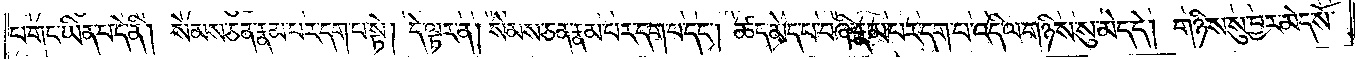པ་གང་ཡིན་པ་དེ་ནི། སེམས་ཅན་རྣམ་པར་དག་པ་སྟེ། དེ་ལྟར་ན། སེམས་ཅན་རྣམ་པར་དག་པ་དང༌། ཚད་མེད་པ་བཞི་རྣམ་པར་དག་པ་འདི་ལ་གཉིས་སུ་མེད་དེ། གཉིས་སུ་བྱར་མེད་སོ་
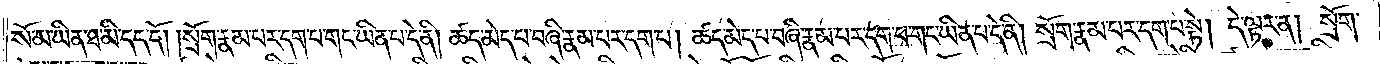སོ་མ་ཡིན་ཐ་མི་དད་དོ། །སྲོག་རྣམ་པར་དག་པ་གང་ཡིན་པ་དེ་ནི། ཚད་མེད་པ་བཞི་རྣམ་པར་དག་པ། ཚད་མེད་པ་བཞི་རྣམ་པར་དག་པ་གང་ཡིན་པ་དེ་ནི། སྲོག་རྣམ་པར་དག་པ་སྟེ། དེ་ལྟར་ན། སྲོག་
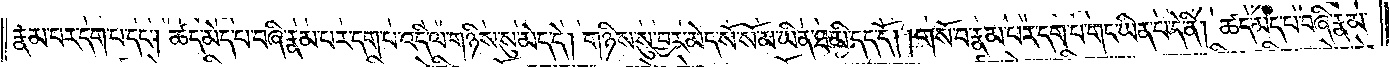རྣམ་པར་དག་པ་དང༌། ཚད་མེད་པ་བཞི་རྣམ་པར་དག་པ་འདི་ལ་གཉིས་སུ་མེད་དེ། གཉིས་སུ་བྱར་མེད་སོ་སོ་མ་ཡིན་ཐ་མི་དད་དོ། །གསོ་བ་རྣམ་པར་དག་པ་གང་ཡིན་པ་དེ་ནི། ཚད་མེད་པ་བཞི་རྣམ་
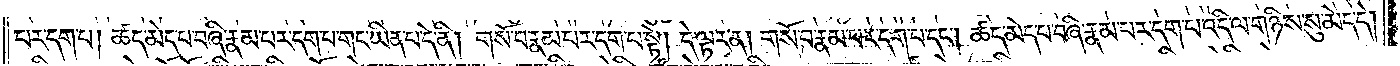པར་དག་པ། ཚད་མེད་པ་བཞི་རྣམ་པར་དག་པ་གང་ཡིན་པ་དེ་ནི། གསོ་བ་རྣམ་པར་དག་པ་སྟེ། དེ་ལྟར་ན། གསོ་བ་རྣམ་པར་དག་པ་དང༌། ཚད་མེད་པ་བཞི་རྣམ་པར་དག་པ་འདི་ལ་གཉིས་སུ་མེད་དེ།
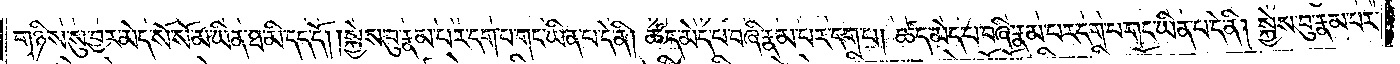གཉིས་སུ་བྱར་མེད་སོ་སོ་མ་ཡིན་ཐ་མི་དད་དོ། །སྐྱེས་བུ་རྣམ་པར་དག་པ་གང་ཡིན་པ་དེ་ནི། ཚད་མེད་པ་བཞི་རྣམ་པར་དག་པ། ཚད་མེད་པ་བཞི་རྣམ་པར་དག་པ་གང་ཡིན་པ་དེ་ནི། སྐྱེས་བུ་རྣམ་པར་
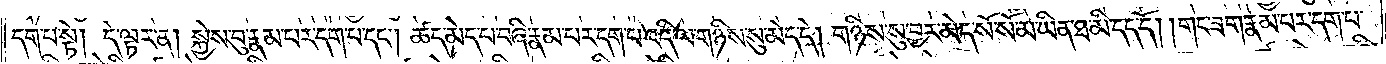དག་པ་སྟེ། དེ་ལྟར་ན། སྐྱེས་བུ་རྣམ་པར་དག་པ་དང༌། ཚད་མེད་པ་བཞི་རྣམ་པར་དག་པ་འདི་ལ་གཉིས་སུ་མེད་དེ། གཉིས་སུ་བྱར་མེད་སོ་སོ་མ་ཡིན་ཐ་མི་དད་དོ། །གང་ཟག་རྣམ་པར་དག་པ་
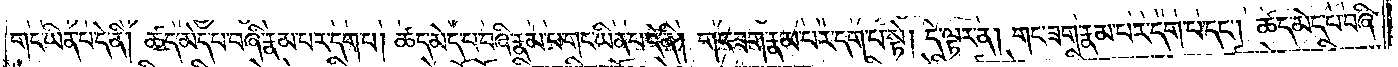གང་ཡིན་པ་དེ་ནི། ཚད་མེད་པ་བཞི་རྣམ་པར་དག་པ། ཚད་མེད་པ་བཞི་རྣམ་པར་དག་པ་གང་ཡིན་པ་དེ་ནི། གང་ཟག་རྣམ་པར་དག་པ་སྟེ། དེ་ལྟར་ན། གང་ཟག་རྣམ་པར་དག་པ་དང༌། ཚད་མེད་པ་བཞི་
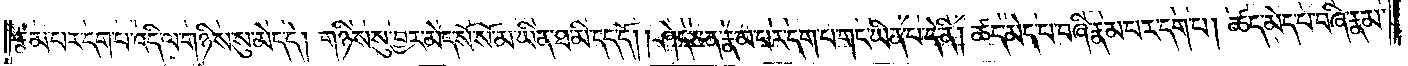རྣམ་པར་དག་པ་འདི་ལ་གཉིས་སུ་མེད་དེ། གཉིས་སུ་བྱར་མེད་སོ་སོ་མ་ཡིན་ཐ་མི་དད་དོ། །ཤེད་ཅན་རྣམ་པར་དག་པ་གང་ཡིན་པ་དེ་ནི། ཚད་མེད་པ་བཞི་རྣམ་པར་དག་པ། ཚད་མེད་པ་བཞི་རྣམ་
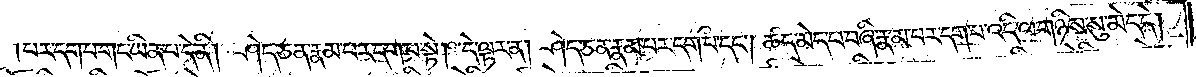པར་དག་པ་གང་ཡིན་པ་དེ་ནི། ཤེད་ཅན་རྣམ་པར་དག་པ་སྟེ། དེ་ལྟར་ན། ཤེད་ཅན་རྣམ་པར་དག་པ་དང༌། ཚད་མེད་པ་བཞི་རྣམ་པར་དག་པ་འདི་ལ་གཉིས་སུ་མེད་དེ།
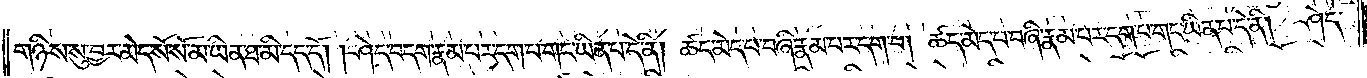གཉིས་སུ་བྱར་མེད་སོ་སོ་མ་ཡིན་ཐ་མི་དད་དོ། །ཤེད་བདག་རྣམ་པར་དག་པ་གང་ཡིན་པ་དེ་ནི། ཚད་མེད་པ་བཞི་རྣམ་པར་དག་པ། ཚད་མེད་པ་བཞི་རྣམ་པར་དག་པ་གང་ཡིན་པ་དེ་ནི། ཤེད་
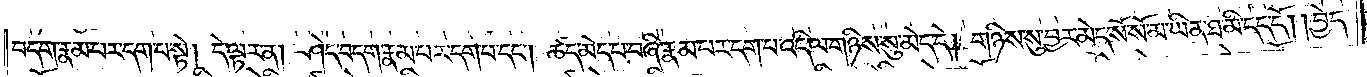བདག་རྣམ་པར་དག་པ་སྟེ། དེ་ལྟར་ན། ཤེད་བདག་རྣམ་པར་དག་པ་དང༌། ཚད་མེད་པ་བཞི་རྣམ་པར་དག་པ་འདི་ལ་གཉིས་སུ་མེད་དེ། གཉིས་སུ་བྱར་མེད་སོ་སོ་མ་ཡིན་ཐ་མི་དད་དོ། །བྱེད་
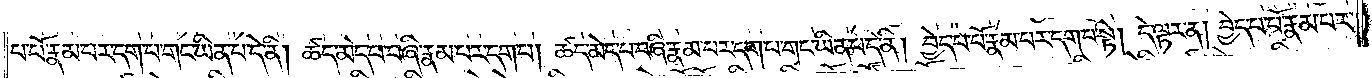པ་པོ་རྣམ་པར་དག་པ་གང་ཡིན་པ་དེ་ནི། ཚད་མེད་པ་བཞི་རྣམ་པར་དག་པ། ཚད་མེད་པ་བཞི་རྣམ་པར་དག་པ་གང་ཡིན་པ་དེ་ནི། བྱེད་པ་པོ་རྣམ་པར་དག་པ་སྟེ། དེ་ལྟར་ན། བྱེད་པ་པོ་རྣམ་པར་
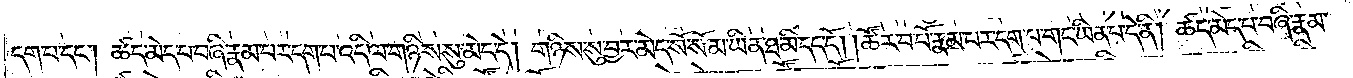དག་པ་དང༌། ཚད་མེད་པ་བཞི་རྣམ་པར་དག་པ་འདི་ལ་གཉིས་སུ་མེད་དེ། གཉིས་སུ་བྱར་མེད་སོ་སོ་མ་ཡིན་ཐ་མི་དད་དོ། །ཚོར་བ་པོ་རྣམ་པར་དག་པ་གང་ཡིན་པ་དེ་ནི། ཚད་མེད་པ་བཞི་རྣམ་
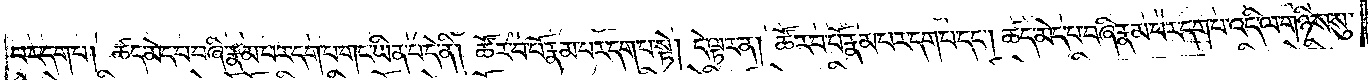པར་དག་པ། ཚད་མེད་པ་བཞི་རྣམ་པར་དག་པ་གང་ཡིན་པ་དེ་ནི། ཚོར་བ་པོ་རྣམ་པར་དག་པ་སྟེ། དེ་ལྟར་ན། ཚོར་བ་པོ་རྣམ་པར་དག་པ་དང༌། ཚད་མེད་པ་བཞི་རྣམ་པར་དག་པ་འདི་ལ་གཉིས་སུ་
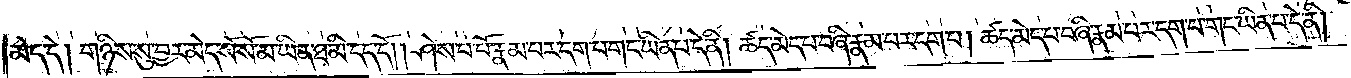མེད་དེ། གཉིས་སུ་བྱར་མེད་སོ་སོ་མ་ཡིན་ཐ་མི་དད་དོ། །ཤེས་པ་པོ་རྣམ་པར་དག་པ་གང་ཡིན་པ་དེ་ནི། ཚད་མེད་པ་བཞི་རྣམ་པར་དག་པ། ཚད་མེད་པ་བཞི་རྣམ་པར་དག་པ་གང་ཡིན་པ་དེ་ནི།
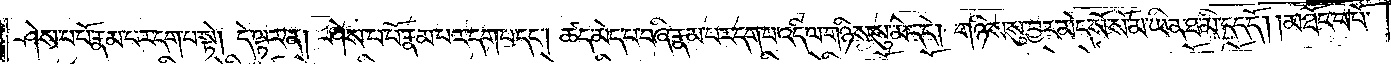ཤེས་པ་པོ་རྣམ་པར་དག་པ་སྟེ། དེ་ལྟར་ན། ཤེས་པ་པོ་རྣམ་པར་དག་པ་དང༌། ཚད་མེད་པ་བཞི་རྣམ་པར་དག་པ་འདི་ལ་གཉིས་སུ་མེད་དེ། གཉིས་སུ་བྱར་མེད་སོ་སོ་མ་ཡིན་ཐ་མི་དད་དོ། །མཐོང་བ་པོ་
